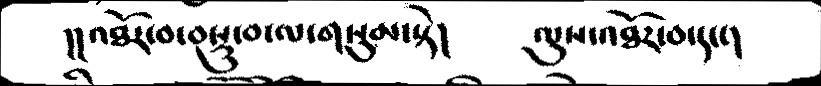།།འཐོར་བ་བསྡུ་བ་ལ་གསུམ་སྟེ།   ལུས་འཐོར་བ་དང་།
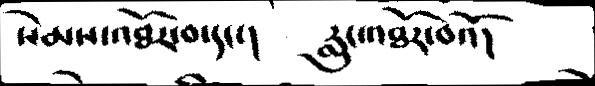སེམས་འཐོར་བ་དང་།    རླུང་འཐོར་བའོ།
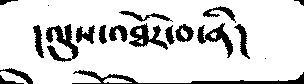།ལུས་འཐོར་བ་ནི།
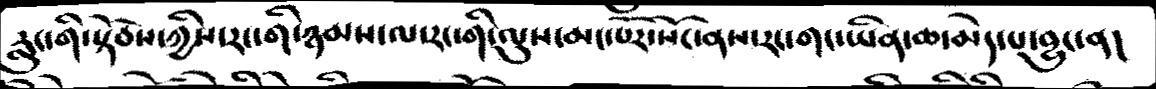རླུང་གི་སྟོབས་ཀྱིས་རང་གི་ཉམས་ལ་རང་གི་ལུས་མང་པོར་སོང་ནས་རང་གང་ཡིན་ཆ་མེད་པ་བྱུང་ན།
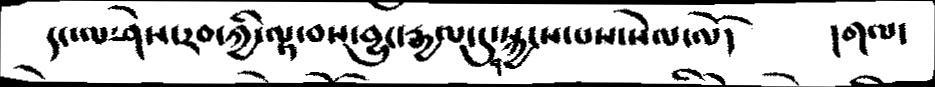དང་ལ་ཤེས་རབ་ཀྱི་ལྟ་བས་བྱུང་རྒྱལ་དུ་བསྐྱངས་པས་སེལ་ལོ།   །གལ་
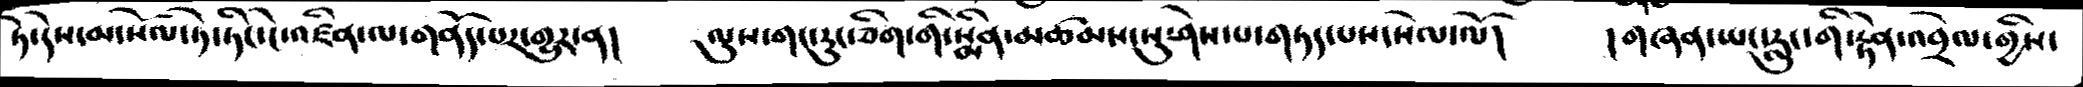ཏེ་དེས་མ་སོལ་ཏེ་ཏིང་ངེ་འཛིན་ལ་གནོད་པར་གྱུར་ན།   ལུས་གང་་རུང་ཅིག་གི་སྨིན་མཚམས་སུ་ཤེས་པ་གཏད་པས་སེལ་ལོ།   །གཞན་ཡང་རླུང་གི་རྟེན་འབྲེལ་གྱིས་
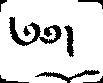༄༅།
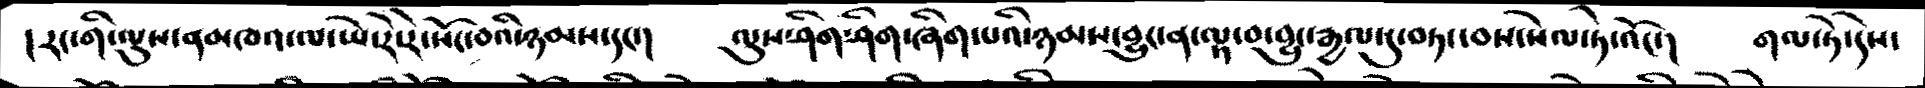།རང་གི་ལུས་ནམཁའ་ལ་ཡེ་རེ་རེ་སོང་བའི་ཉམས་དང་།   ལུས་ཤིག་ཤིག་ཞིག་པའི་ཉམས་བྱུང་ན་ལྟ་བ་བྱུང་རྒྱལ་དུ་བཏང་བས་སེལ་ཏེ་འོང་།   གལ་ཏེ་དེས་
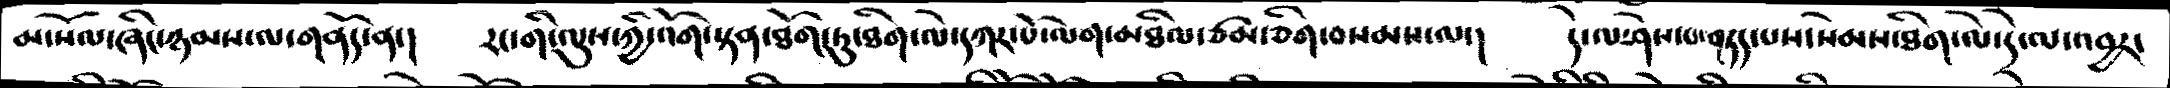མ་སོལ་ཞིང་ཉམས་ལ་གནོད་ན་།   རང་གི་ལུས་ཀྱི་འོག་སྟན་ཐོག་ཏུ་ཐིག་ལེ་དཀར་པོ་ལག་མཐིལ་ཙམ་ཅིག་བསམས་ལ་།   དེ་ལ་ཤེས་པ་གཏད་པས་སེམས་ཐིག་ལེ་དྲེ་ལ་འབྱར་
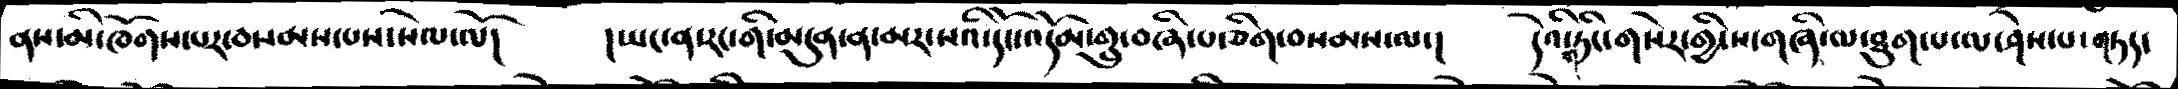ནས་མི་ཁོགས་པར་བསམས་པས་སེལ་ལོ།   །ཡང་ན་རང་གི་མདུན་ན་མར་སའི་དོང་འདོམ་གྲུ་བཞི་པ་ཅིག་བསམས་ལ་།   དེའི་གཏིང་གསེར་གྱི་ས་གཞི་ལ་ཐུག་པ་ལ་ཤེས་པ་གཏད་
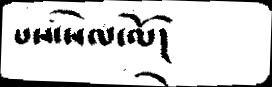པས་སེལ་ལོ།
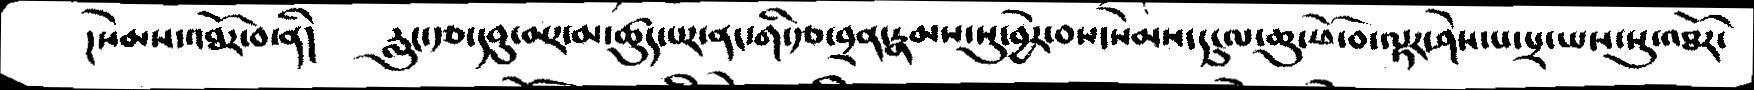།སེམས་འཐོར་བ་ནི།   རླུང་རྩ་དབུ་མར་མ་ཚུད་པར་ནང་གི་རྩ་བྲན་རྣམས་སུ་བྱེར་བས་སེམས་དངུལ་ཆུ་ཕོ་བ་ལྟར་ཤེས་པ་པྲ་ཡས་སུ་འཐོར་
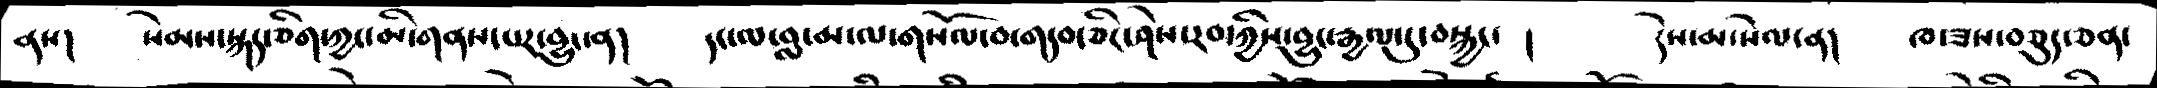ནས།   སེམས་སྐད་ཅིག་ཀྱང་མི་གནས་པར་བྱུང་ན།   དང་ལ་བླ་མ་ལ་གསོལ་བ་གདབ་ཅིང་ཤེས་རབ་ཀྱིས་བྱུང་རྒྱལ་དུ་བསྐྱང་ །   དེས་མ་སེལ་ན།   ཁ་ཟས་བཅུད་ཅན་
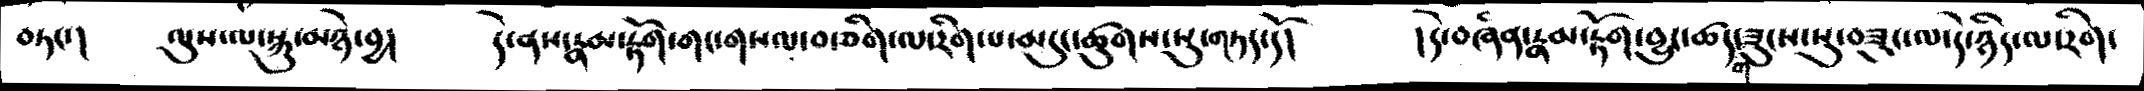བཏང་།   ལུས་ལ་སྐུ་མཉེ་བྱ།   དེ་ནས་རྣམ་རྟོག་གང་གསལ་བ་ཅིག་ལ་རིག་པ་མདུང་ཚུགས་སུ་གཏད་དོ།   །དེ་བཞིན་རྣམ་རྟོག་བྱུང་ཚད་གཟུངས་སུ་བཟུང་ལ་དེ་ཉིད་ལ་རིག་
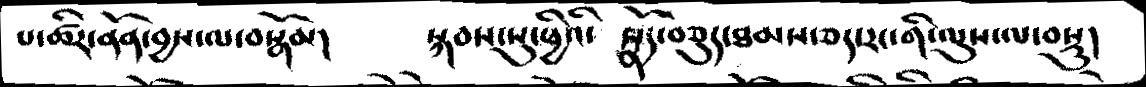པ་ཚིར་ནོན་བྱས་ལ་བསྒོམ།   སྐབས་སུ་ཕྱིའི་ སྣོད་བཅུད་ཐམས་ཅད་རང་གི་ལུས་ལ་བསྡུ།
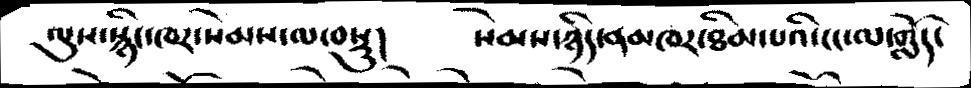ལུས་སྙིང་ཁར་སེམས་ལ་བསྡུ།     སེམས་ཉིད་ནམཁར་ཐིམ་པའི་ངང་ལ་གློད་
